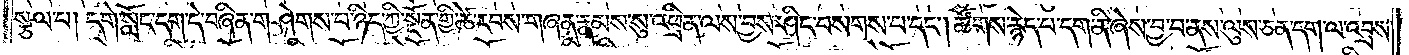སྩལ་པ། དགེ་སློང་དག་དེ་བཞིན་གཤེགས་པ་ཉིད་ཀྱི་སྔོན་གྱི་ཚེ་རབས་གཞན་རྣམས་སུ་འཕྲིན་ལས་བྱས་ཤིང་བསགས་པ་དང༌། ཚོགས་རྙེད་པ་དག་ནི་ཞེས་བྱ་བ་ནས་ལུས་ཅན་དག་ལ་འབྲས་
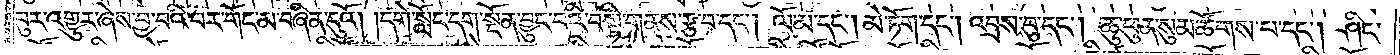བུར་འགྱུར་ཞེས་བྱ་བའི་བར་གོང་མ་བཞིན་དུའོ། །དགེ་སློང་དག་སྔོན་བྱུང་བའི་བསྟི་གནས་རྩ་བ་དང༌། ལོ་མ་དང༌། མེ་ཏོག་དང༌། འབྲས་བུ་དང༌། ཆུ་ཕུན་སུམ་ཚོགས་པ་དང༌། ཤིང་
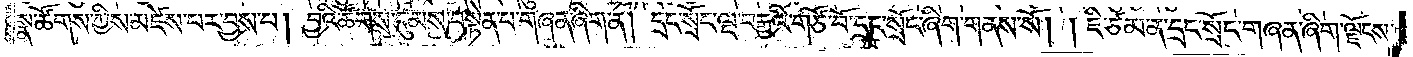སྣ་ཚོགས་ཀྱིས་མཛེས་པར་བྱས་པ། བྱའི་ཚོགས་དུ་མས་བསྟེན་པ་གཞན་ཞིག་ན། དྲང་སྲོང་ལྔ་བརྒྱའི་གཙོ་བོ་དྲང་སྲོང་ཞིག་གནས་སོ། །ཇི་ཙམ་ན་དྲང་སྲོང་གཞན་ཞིག་ལྗོངས་
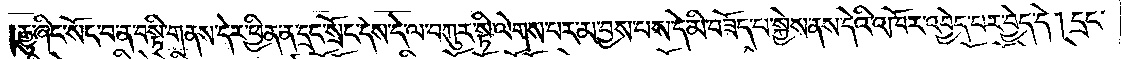རྒྱུ་ཞིང་སོང་བ་ན་བསྟི་གནས་དེར་ཕྱིན་ན་དྲང་སྲོང་དེས་དེ་ལ་བཀུར་སྟི་ལེགས་པར་མ་བྱས་པས་དེ་མི་བཟོད་པ་སྐྱེས་ནས་དེའི་འཁོར་འབྱེད་པར་བྱེད་དེ། དྲང་
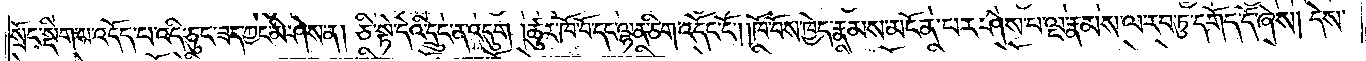སྲོང་སྡིག་པ་འདོད་པ་འདི་ཅུང་ཟད་ཀྱང་མི་ཤེས་ན། ཅི་སྟེ་དེའི་དྲུང་ན་འདུག །ཚུར་ཁོ་བོ་དང་ལྷན་ཅིག་འདོང་ངོ༌། །ཁོ་བོས་ཁྱེད་རྣམས་མངོན་པར་ཤེས་པ་ལྔ་རྣམས་ལ་རབ་ཏུ་དགོད་དོ་ཞེས། དེས་
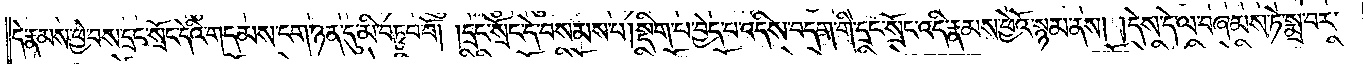དེ་རྣམས་ཕྱེ་བས་དྲང་སྲོང་དེའི་གདམས་ངག་ཉན་དུ་མི་བཏུབ་བོ། །དྲང་སྲོང་དེ་བསམས་པ། སྡིག་པ་བྱེད་པ་འདིས་བདག་གི་དྲང་སྲོང་འདི་རྣམས་ཕྱེའོ་སྙམ་ནས། །དེས་དེ་ལ་བཞམས་ཏེ་སྨྲ་བར་
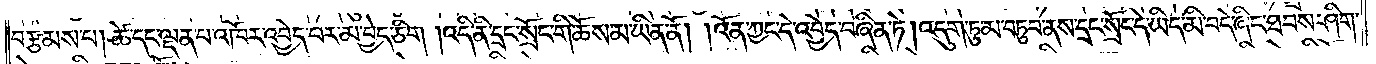བརྩམས་པ། ཚེ་དང་ལྡན་པ་འཁོར་འབྱེད་པར་མ་བྱེད་ཅིག །འདི་ནི་དྲང་སྲོང་གི་ཆོས་མ་ཡིན་ནོ། །འོན་ཀྱང་དེ་འབྱེད་བཞིན་ཏེ། འདུག་ཏུ་མ་བཏུབ་ནས་དྲང་སྲོང་དེ་ཡིད་མི་བདེ་ཞིང་ཐབས་ཤིག་
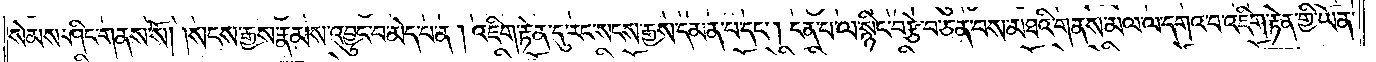སེམས་ཤིང་གནས་སོ། །སངས་རྒྱས་རྣམས་འབྱུང་བ་མེད་པ་ན། འཇིག་རྟེན་དུ་རང་སངས་རྒྱས་དམན་པ་དང༌། ངན་པ་ལ་སྙིང་བརྩེ་བ་ཅན་པས་མཐའི་གནས་མལ་ལ་དགའ་བ་འཇིག་རྟེན་གྱི་ཡོན་
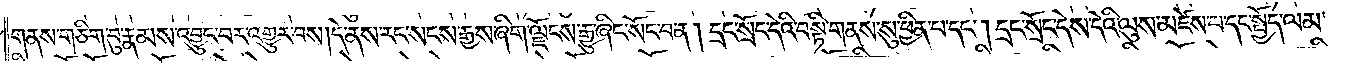གནས་གཅིག་པུ་རྣམས་འབྱུང་བར་འགྱུར་པས། དེ་ནས་རང་སངས་རྒྱས་ཞིག་ལྗོངས་རྒྱུ་ཞིང་སོང་བ་ན། དྲང་སྲོང་དེའི་བསྟི་གནས་སུ་ཕྱིན་པ་དང༌། དྲང་སྲོང་དེས་དེའི་ལུས་མཛེས་པ་དང་སྤྱོད་ལམ་
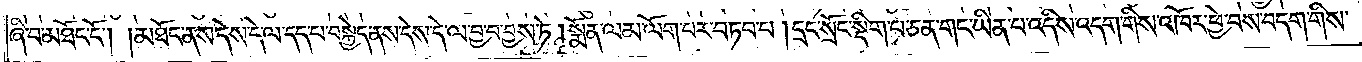ཞི་བ་མཐོང་ངོ༌། །མཐོང་ནས་དེས་དེ་ལ་དད་པ་བསྐྱེད་ནས་དེས་དེ་ལ་བྱ་བ་བྱས་ཏེ་།སྨོན་ལམ་ལོག་པར་བཏབ་པ། དྲང་སྲོང་སྡིག་པ་ཅན་གང་ཡིན་པ་འདིས་བདག་གིས་འཁོར་ཕྱེ་བས་བདག་གིས་
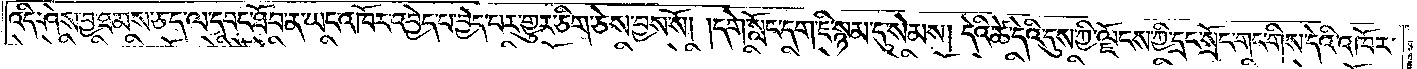འདི་ཤེས་བྱ་ཐམས་ཅད་ལ་དབང་ཐོབ་ན་ཡང་འཁོར་འབྱེད་པ་བྱེད་པར་གྱུར་ཅིག་ཅེས་བྱས་སོ། །དགེ་སློང་དག་ཇི་སྙམ་དུ་སེམས། དེའི་ཚེ་དེའི་དུས་ཀྱི་ལྗོངས་ཀྱི་དྲང་སྲོང་གང་གིས་དེའི་འཁོར་
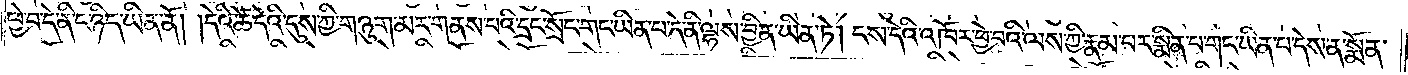ཕྱེ་བ་དེ་ནི་ང་ཉིད་ཡིན་ནོ། །དེའི་ཚེ་དེའི་དུས་ཀྱི་གཉུག་མར་གནས་པའི་དྲང་སྲོང་གང་ཡིན་པ་དེ་ནི་ལྷས་བྱིན་ཡིན་ཏེ། ངས་དེའི་འཁོར་ཕྱེ་བའི་ལས་ཀྱི་རྣམ་པར་སྨིན་པ་གང་ཡིན་པ་དེས་ན་སྨོན་
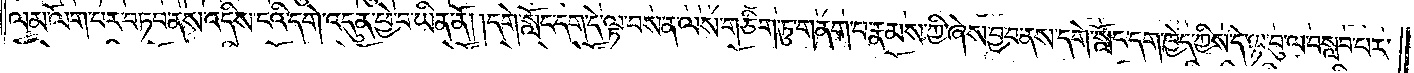ལམ་ལོག་པར་བཏབ་ནས་འདིས་ངའི་དགེ་འདུན་ཕྱེ་བ་ཡིན་ནོ། །དགེ་སློང་དག་དེ་ལྟ་བས་ན་ལས་གཅིག་པུ་གནག་པ་རྣམས་ཀྱི་ཞེས་བྱ་བ་ནས་དགེ་སློང་དག་ཁྱེད་ཀྱིས་དེ་ལྟ་བུ་ལ་བསླབ་པར་
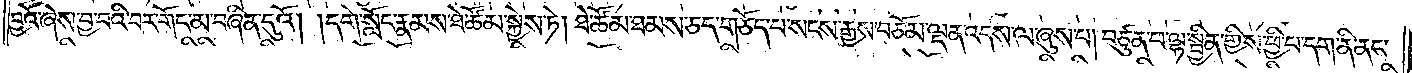བྱའོ་ཞེས་བྱ་བའི་བར་གོང་མ་བཞིན་དུའོ། །དགེ་སློང་རྣམས་ཐེ་ཚོམ་སྐྱེས་ཏེ། ཐེ་ཚོམ་ཐམས་ཅད་གཅོད་པ་སངས་རྒྱས་བཅོམ་ལྡན་འདས་ལ་ཞུས་པ། བཙུན་པ་ལྷ་སྦྱིན་གྱིས་ཕྱི་པ་དག་ནི་ནང་
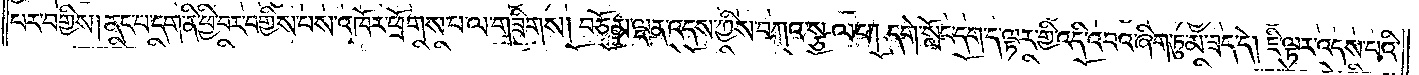པར་བགྱིས། ནང་པ་དག་ནི་ཕྱི་བར་བགྱིས་པས་འཁོར་ཕྲོགས་པ་ལ་གཟིགས། བཅོམ་ལྡན་འདས་ཀྱིས་བཀའ་སྩལ་པ། དགེ་སློང་དག་ད་ལྟར་གྱི་འདི་འབའ་ཞིག་ཏུ་མ་ཟད་དེ། ཇི་ལྟར་འདས་པའི་
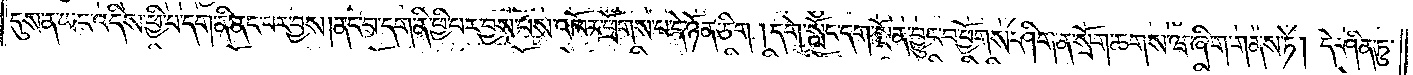དུས་ན་ཡང་འདིས་ཕྱི་པ་དག་ནི་ནང་པར་བྱས། ནང་བ་དག་ནི་ཕྱི་པར་བྱས་པས་འཁོར་ཕྲོགས་པ་དེ་ཉོན་ཅིག །དགེ་སློང་དག་སྔོན་བྱུང་བ་ཕྱོགས་ཤིག་ན་སྲོག་ཆགས་ཝ་ཞིག་གནས་ཏེ། དེ་ཤིན་ཏུ་
